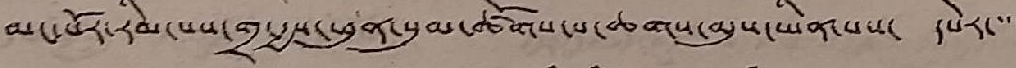མང་པོར་རིམ་པས་གྲ་རྒྱས་ཕུན་སུམ་ཚོགས་པ་ཆགས་མུས་ཡིན་པས་ དཔེར་་་་
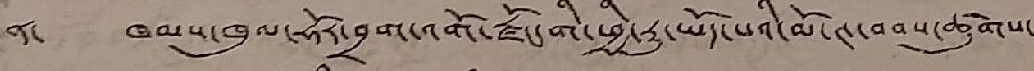ན་ ཁམས་ཁུལ་ཧོར་བྲག་འགོ་རྫོང་གི་ཕྱི་རུ་ཡོད་པའི་མོ་ཊ་བབས་ཚུགས་
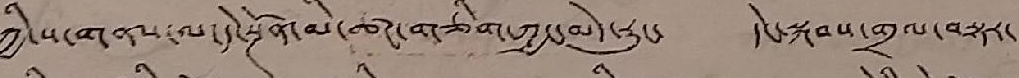ཀྱི་ས་གནས་ལ་དེ་སྔོན་མི་ཚང་གཅིག་ཀྱང་མེད་རུང་ དེང་སྐབས་གྲལ་བསྟར་
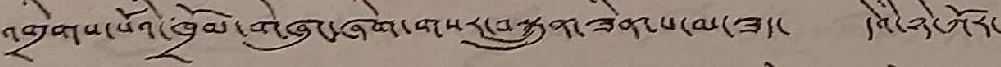འགྲིགས་པོའི་ཁྲོམ་གཞུང་ཞིག་གསར་བསྐྲུན་ཟིན་པ་མ་ཟད་ དེའི་ཉེ་ཀོར་
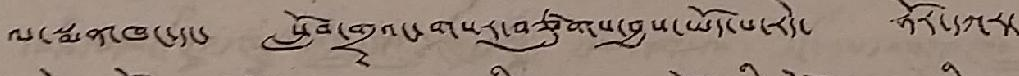ལ་སྨན་ཁང་དང་སློབ་གྲྭའང་གསར་བཙུགས་བྱས་ཡོད་པ་རེད་ ཧོར་དཀར་
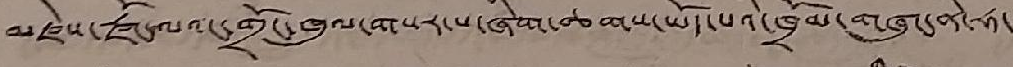མཛེས་རྫོང་ལའང་གྲོང་ཁུལ་གསར་པ་ཞིག་ཆགས་ཡོད་པའི་ཁྲོམ་གཞུང་ནི་ཧ་
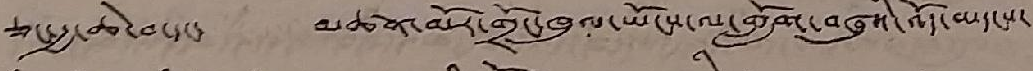ཅང་རྒྱ་ཆེ་བ་དང་ མཚན་མོར་གྲོང་ཁུལ་ཡོངས་ལ་གློག་བཞུའི་འོད་མདངས་
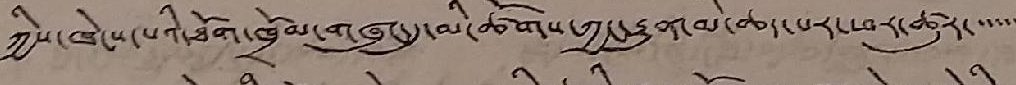ཀྱིས་ཁེངས་པའི་ཐོག་ཁྲོམ་གཞུང་དུ་མི་ཚོགས་ཀྱང་རྒྱུན་མི་ཆད་པར་ཕར་ཚུར་་་་་་
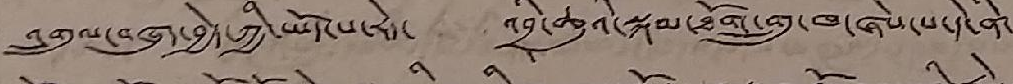འགྲུལ་བཞུད་བྱེད་ཀྱི་ཡོད་པ་རེད་ འབྲི་ཆུའི་སྐམ་ཐོག་གྲུ་ཁ་ཞེས་པ་དེ་ནི་
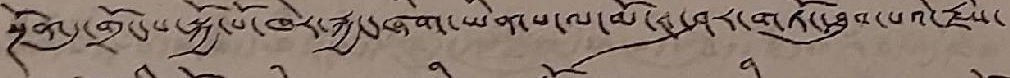སྔོན་དུ་གྲོང་པ་སྐྱོ་པོ་ཁེར་རྐྱང་ཞིག་ཡིན་པ་ལ་མོ་ཊ་ཤར་གཏོང་ཐུབ་པའི་རྗེས་
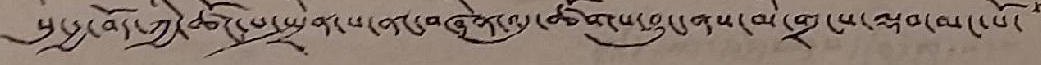སུ་རྒྱ་བོད་ཀྱི་ཚོང་པ་སྤྲིན་པ་ནང་བཞིན་དུ་ཚོགས་བྱུང་ནས་མི་གྲངས་ལྡབ་མང་པོ་
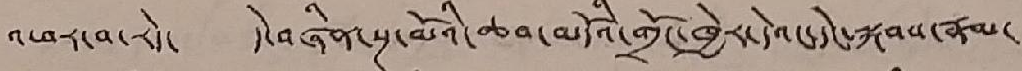འཕར་བ་རེད་ དེ་བཞིན་སྔ་མོའི་ཆབ་མདོའི་གྲོང་ཁྱེར་དེའང་དེང་སྐབས་རྣམ་
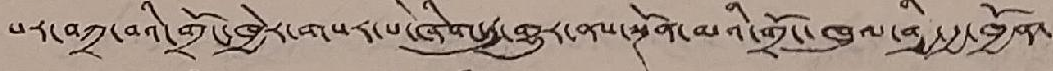པར་བཀྲ་བའི་གྲོང་ཁྱེར་གསར་པ་ཞིག་ཏུ་གྱུར་ནས་སྔོན་མའི་གྲོང་ཁུལ་གྱི་རྒྱ་ཁྱོན་
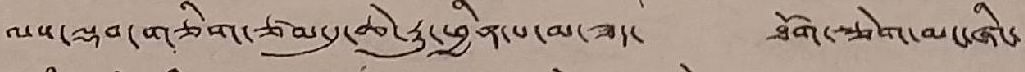ལས་ལྡབ་གཅིག་ཙམ་དུ་ཆེ་རུ་ཕྱིན་པ་མ་ཟད་ ཐོག་རྩེག་མང་ཞིང་
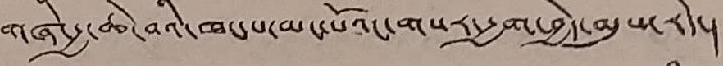གཞི་རྒྱ་ཆེ་བའི་ཁང་པ་མང་པོའང་གསར་རྒྱག་བྱེད་མུས་རེད་།
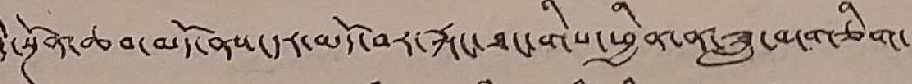དེ་སྔོན་ཆབ་མདོ་ནས་དར་མདོ་བར་རྐང་ཐང་གིས་ཕྱིན་ན་ཟླ་བ་གཅིག་
